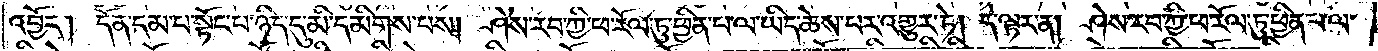འབྱོར། དོན་དམ་པ་སྟོང་པ་ཉིད་དུ་མི་དམིགས་པས། ཤེས་རབ་ཀྱི་ཕ་རོལ་ཏུ་ཕྱིན་པ་ལ་ཡིད་ཆེས་པར་འགྱུར་ཏེ། དེ་ལྟར་ན། ཤེས་རབ་ཀྱི་ཕ་རོལ་ཏུ་ཕྱིན་པ་ལ་
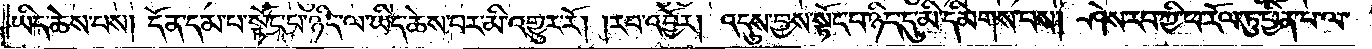ཡིད་ཆེས་པས། དོན་དམ་པ་སྟོང་པ་ཉིད་ལ་ཡིད་ཆེས་པར་མི་འགྱུར་རོ། །རབ་འབྱོར། འདུས་བྱས་སྟོང་པ་ཉིད་དུ་མི་དམིགས་པས། ཤེས་རབ་ཀྱི་ཕ་རོལ་ཏུ་ཕྱིན་པ་ལ་
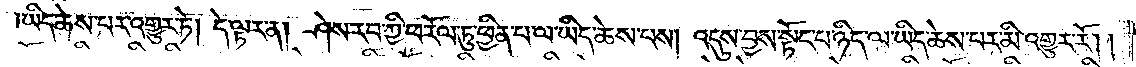ཡིད་ཆེས་པར་འགྱུར་ཏེ། དེ་ལྟར་ན། ཤེས་རབ་ཀྱི་ཕ་རོལ་ཏུ་ཕྱིན་པ་ལ་ཡིད་ཆེས་པས། འདུས་བྱས་སྟོང་པ་ཉིད་ལ་ཡིད་ཆེས་པར་མི་འགྱུར་རོ། །
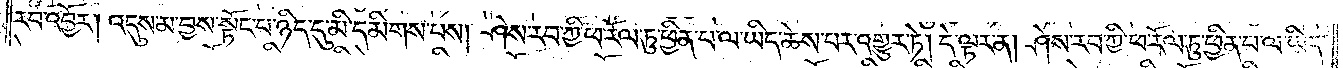རབ་འབྱོར། འདུས་མ་བྱས་སྟོང་པ་ཉིད་དུ་མི་དམིགས་པས། ཤེས་རབ་ཀྱི་ཕ་རོལ་ཏུ་ཕྱིན་པ་ལ་ཡིད་ཆེས་པར་འགྱུར་ཏེ། དེ་ལྟར་ན། ཤེས་རབ་ཀྱི་ཕ་རོལ་ཏུ་ཕྱིན་པ་ལ་ཡིད་
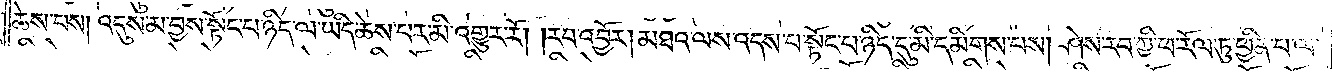ཆེས་པས། འདུས་མ་བྱས་སྟོང་པ་ཉིད་ལ་ཡིད་ཆེས་པར་མི་འགྱུར་རོ། །རབ་འབྱོར། མཐའ་ལས་འདས་པ་སྟོང་པ་ཉིད་དུ་མི་དམིགས་པས། ཤེས་རབ་ཀྱི་ཕ་རོལ་ཏུ་ཕྱིན་པ་ལ་
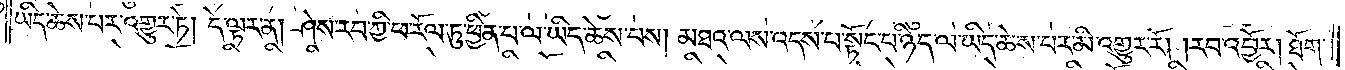ཡིད་ཆེས་པར་འགྱུར་ཏེ། དེ་ལྟར་ན། ཤེས་རབ་ཀྱི་ཕ་རོལ་ཏུ་ཕྱིན་པ་ལ་ཡིད་ཆེས་པས། མཐའ་ལས་འདས་པ་སྟོང་པ་ཉིད་ལ་ཡིད་ཆེས་པར་མི་འགྱུར་རོ། །རབ་འབྱོར། ཐོག་
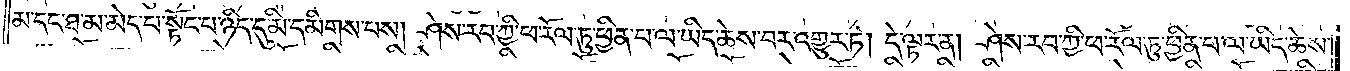མ་དང་ཐ་མ་མེད་པ་སྟོང་པ་ཉིད་དུ་མི་དམིགས་པས། ཤེས་རབ་ཀྱི་ཕ་རོལ་ཏུ་ཕྱིན་པ་ལ་ཡིད་ཆེས་པར་འགྱུར་ཏེ། དེ་ལྟར་ན། ཤེས་རབ་ཀྱི་ཕ་རོལ་ཏུ་ཕྱིན་པ་ལ་ཡིད་ཆེས་
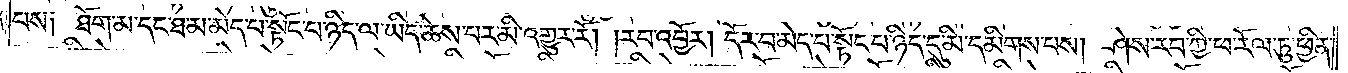པས༑ ཐོག་མ་དང་ཐ་མ་མེད་པ་སྟོང་པ་ཉིད་ལ་ཡིད་ཆེས་པར་མི་འགྱུར་རོ། །རབ་འབྱོར། དོར་བ་མེད་པ་སྟོང་པ་ཉིད་དུ་མི་དམིགས་པས། ཤེས་རབ་ཀྱི་ཕ་རོལ་ཏུ་ཕྱིན་
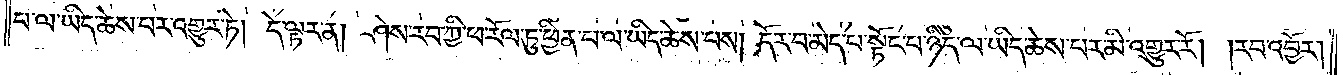པ་ལ་ཡིད་ཆེས་པར་འགྱུར་ཏེ། དེ་ལྟར་ན། ཤེས་རབ་ཀྱི་ཕ་རོལ་ཏུ་ཕྱིན་པ་ལ་ཡིད་ཆེས་པས། དོར་བ་མེད་པ་སྟོང་པ་ཉིད་ལ་ཡིད་ཆེས་པར་མི་འགྱུར་རོ། །རབ་འབྱོར།
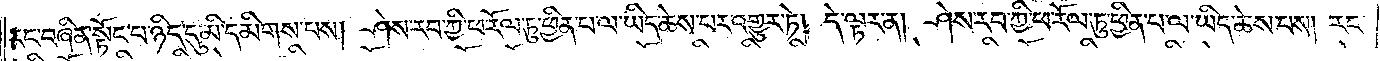རང་བཞིན་སྟོང་པ་ཉིད་དུ་མི་དམིགས་པས། ཤེས་རབ་ཀྱི་ཕ་རོལ་ཏུ་ཕྱིན་པ་ལ་ཡིད་ཆེས་པར་འགྱུར་ཏེ། དེ་ལྟར་ན། ཤེས་རབ་ཀྱི་ཕ་རོལ་ཏུ་ཕྱིན་པ་ལ་ཡིད་ཆེས་པས། རང་
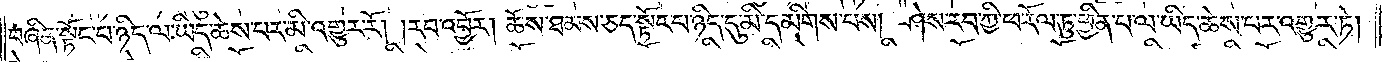བཞིན་སྟོང་པ་ཉིད་ལ་ཡིད་ཆེས་པར་མི་འགྱུར་རོ། །རབ་འབྱོར། ཆོས་ཐམས་ཅད་སྟོང་པ་ཉིད་དུ་མི་དམིགས་པས། ཤེས་རབ་ཀྱི་ཕ་རོལ་ཏུ་ཕྱིན་པ་ལ་ཡིད་ཆེས་པར་འགྱུར་ཏེ།
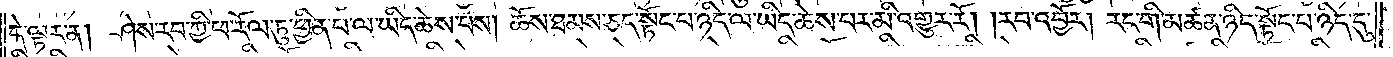དེ་ལྟར་ན། ཤེས་རབ་ཀྱི་ཕ་རོལ་ཏུ་ཕྱིན་པ་ལ་ཡིད་ཆེས་པས། ཆོས་ཐམས་ཅད་སྟོང་པ་ཉིད་ལ་ཡིད་ཆེས་པར་མི་འགྱུར་རོ། །རབ་འབྱོར། རང་གི་མཚན་ཉིད་སྟོང་པ་ཉིད་དུ་
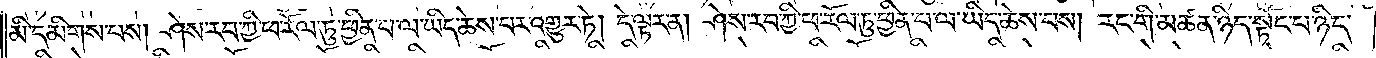མི་དམིགས་པས། ཤེས་རབ་ཀྱི་ཕ་རོལ་ཏུ་ཕྱིན་པ་ལ་ཡིད་ཆེས་པར་འགྱུར་ཏེ། དེ་ལྟར་ན། ཤེས་རབ་ཀྱི་ཕ་རོལ་ཏུ་ཕྱིན་པ་ལ་ཡིད་ཆེས་པས། རང་གི་མཚན་ཉིད་སྟོང་པ་ཉིད་
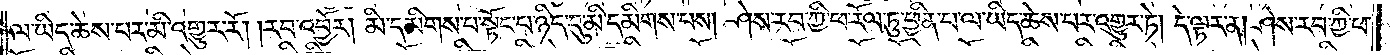ལ་ཡིད་ཆེས་པར་མི་འགྱུར་རོ། །རབ་འབྱོར། མི་དམིགས་པ་སྟོང་པ་ཉིད་དུ་མི་དམིགས་པས། ཤེས་རབ་ཀྱི་ཕ་རོལ་ཏུ་ཕྱིན་པ་ལ་ཡིད་ཆེས་པར་འགྱུར་ཏེ། དེ་ལྟར་ན། ཤེས་རབ་ཀྱི་ཕ་
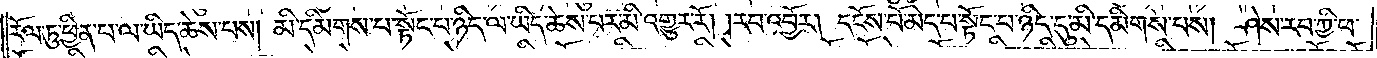རོལ་ཏུ་ཕྱིན་པ་ལ་ཡིད་ཆེས་པས། མི་དམིགས་པ་སྟོང་པ་ཉིད་ལ་ཡིད་ཆེས་པར་མི་འགྱུར་རོ། །རབ་འབྱོར། དངོས་པོ་མེད་པ་སྟོང་པ་ཉིད་དུ་མི་དམིགས་པས། ཤེས་རབ་ཀྱི་ཕ་
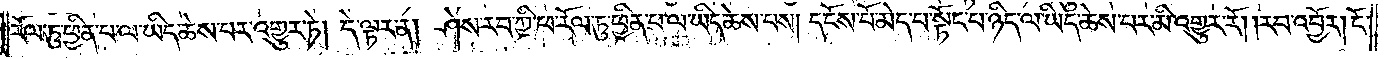རོལ་ཏུ་ཕྱིན་པ་ལ་ཡིད་ཆེས་པར་འགྱུར་ཏེ། དེ་ལྟར་ན། ཤེས་རབ་ཀྱི་ཕ་རོལ་ཏུ་ཕྱིན་པ་ལ་ཡིད་ཆེས་པས། དངོས་པོ་མེད་པ་སྟོང་པ་ཉིད་ལ་ཡིད་ཆེས་པར་མི་འགྱུར་རོ། །རབ་འབྱོར། ངོ་
